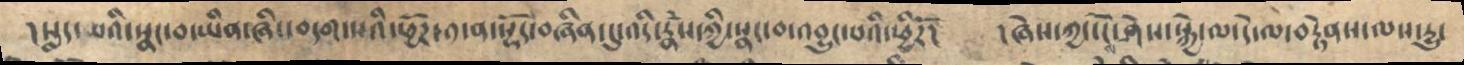།སླད་པའི་སྣང་བ་ཡིན་ཞིང་བདག་སའི་ཕྱོཌ་༡་ན་སྡོད་བཞིན་དུ་འདི་རྣཾས་ཀྱི་སྣང་བ་འབྱུང་པའི་ཕྱིརོ།  །ཞེས་ཀྱང་ངེས་ཤེས་སྐྱེ་ལ་དེ་ལ་བརྟེནས་ལས་དྱུ་
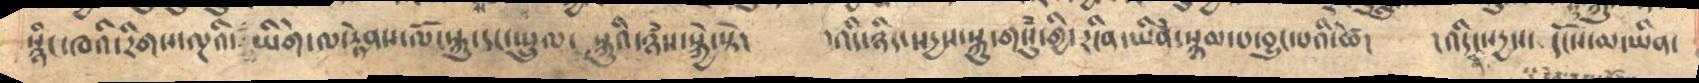སྙིང་ཁའི་རིགས་ལྔའི་  ཡིགེ་ལ་རྟེནས་ལོངསྐུ་དང་སྤྲུལ་   སྐུའི་ཉཾས་སྐྱེ་སྟེ།     །འདི་ཉིད་སདྱས་སྐུ་གསུཾ་གྱི་རངིན་ཡིནཾ་སྙམ་པ་བྱུང་པའི་ཚེ།  །འདི་སདྱས་  དངོས་མ་ཡིན་
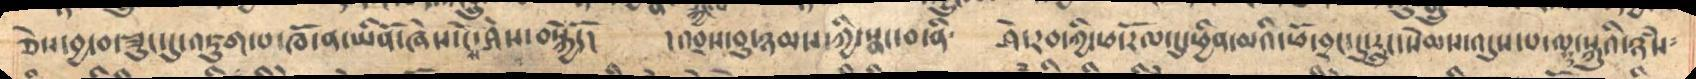ཅེས་བྱ་བ་ཟུང་དུ་འཇུག་པ་ཁོ་ན་ཡིནོ་ཞེས་ངེས་ཤེས་བསྐྱེདོ།    །འབྲས་བུ་ཉམས་ཀྱི་སྣང་བ་ནི༴   ཤེ་རབ་ཀྱི་ཕ་རོལ་དུ་ཕྱིན་མའི་ཕོ་བྲང་དུ་རླུང་སེམས་འདུས་པ་ལྷ་སྐུའི་ཉཾས༴
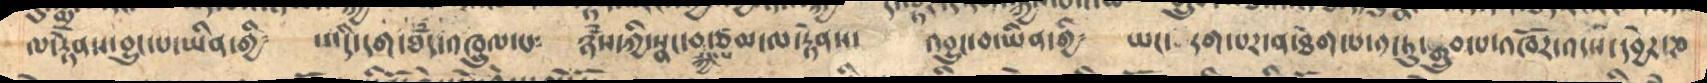ལ་རྟེནས་བྱུང་པ་ཡིན་གྱི༴   ་འདི་དག་ཐཾད་འཁྲུལ་པ༴   ཉཾས་ཀྱི་སྣང་བ་རྐྱང་པ་ཙམ་ལ་རྟེནས་   འབྱུང་བ་ཡིན་གྱི༴   ཡང་  དག་པར་ན་ཐེག་པ་༡་ཏུ་སྒྲུབ་པ་འཁོར་འདས་དབྱེར་ཎ
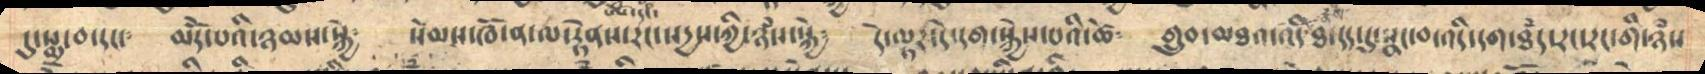དུ་སྨྲ་བ་དང་   མདོེ་པའི་ཉམས་སྐྱེ    སེམས་ཁོ་ན་ལ་རྟེནས་རང་སདྱས་ཀྱི་ཉཾས་སྐྱེ༴   དེ་ལྟར་དེ་དག་སྐྱེས་པའི་ཚེ༴   གྲུབ་མཐའ་འདི་ཐ་དད་དུ་སྣང་བ་འདི་དག་ཐཾད་རང་རང་གི་ཉཾས
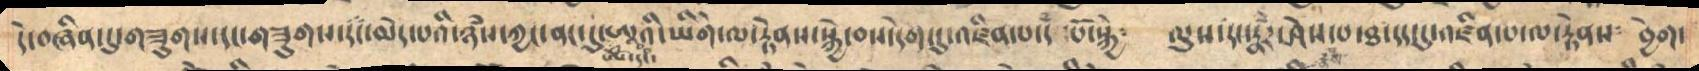དེ་བཞིནདུ་གཟུགས་དང་གཟུགས་དང་མེད་པའི་ཉཾས་ཀྱང་ནང་དུ་ཨཱོྃ་དང་ཨཱའི་ཡིགེ་ལ་རྟེནས་སྐྱེ་བས་དག་དུ་འཛིན་པ་དཾ ་པོ་སྐྱེ༴   ལུས་དང་རྣཾར་ཤེས་པ་ཐ་དད་དུ་འཛིན་པ་ལ་རྟེནས༴  བྱེག་
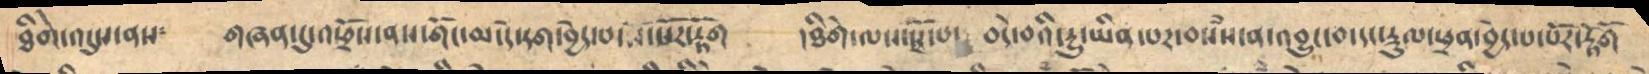ཐིགེ་འདུས་ནས   གཞན་དུ་འཕྲོས་ནས་གོང་མ་དེ་དག་བྱེད་པ་སོ་སོར་རྟོག   །ཐིགེ་ལས་སྭོ་པ་  བདེ་བའི་དྱུ་ཡིན་པར་བསཾས་ན་འབྱུང་བ་དང་རྡུལ་ཕྲན་བྱེད་པ་པོར་རྟོགོ
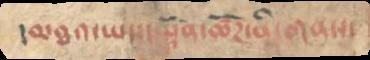།མཐའ་ཡས་།  ཡྟོན་ཚོཌ་ནི་གནས་
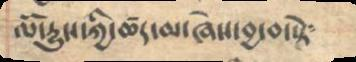ལོ་རྱུས་ཀྱི་ཚད་མ་ཞེས་བྱ་བ་སྟེ༴
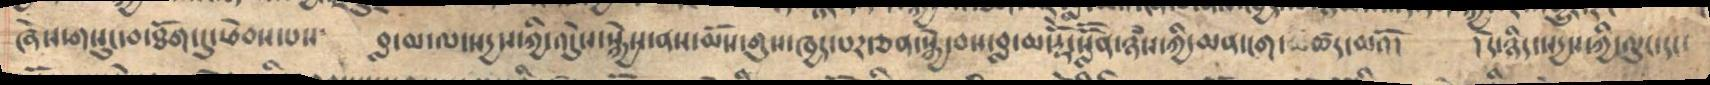ཞེས་གསུང་བ་ཐོག་དུ་ཕེབས་པས༴ བླ་མ་ལ་སདྱས་ཀྱི་འདེུས་སྐྱེས་ནས་མོས་གུས་ཁྱད་པར་ཅན་སྐྱེ་བས་བླ་མ་རྡོེ་སློོན་ཉཾས་ཀྱི་མན་ངག་ཚད་མའོ། །དེ་ཉིད་སདྱས་ཀྱི་ལུས་དང་
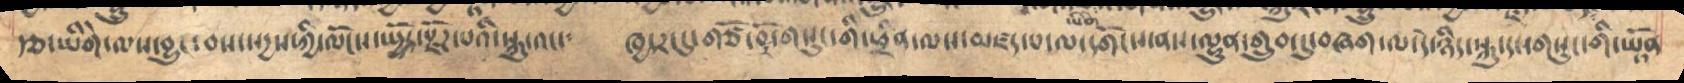རྩ་ཡིགེ་ལས་བྱུང་བས་སདྱས་ཀྱི་ལོངས་སྤྱོད་རྫོཌ་པའི་སྐུ་འདུད   ཁྱདར་དུ་གཙོ་བོར་གསུང་གི་ཕྲིན་ལས་མཛད་པ་ལ་དགོངས་ནས་ལྷུན་གྲུབ་དུ་བཞག་ལ་དེ་ཉིད་སྐུ་དང་གསུང་གི་ཡྟོན
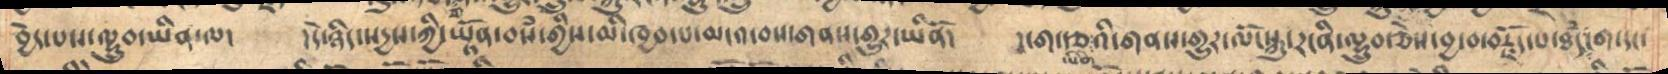བྱེད་པས་ལྷུབ་ཡིན་ལ།  །དེ་ཉིད་སདྱས་ཀྱི་ཡྟོན་བསཾ་གྱིས་མི་ཁྱབ་པ་མདའ་བས་གནས་གྱུར་ཡིནོ།   །ངག་་ཡིགེ་རྩའི་གནས་གྱུར་ལོངསྐུ་རངིན་ལྷུབ་ཅེས་བྱ་བ་བརྗོད་པ་ཐཾད་ངག་དང་
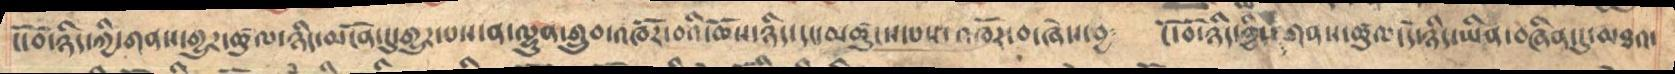ངོ་བོ་ཉིད་ཀྱི་གནས་གྱུར་ཚུལ་ཉིད་མངོན་དུ་གྱུར་པས་ན་ལྷུན་གྲུབ་འཁཽར་བའི་ཆོས་ཉིད་དང་མཚུངས་པས་འཁོར་བ་ཞེས་བྱ༴ ངོ་བོ་ཉིད་ཀྱིས་གནས་ཚུལ་དེ་ཉིད་ཡིན་བཞིན་དུ་མཐའ་
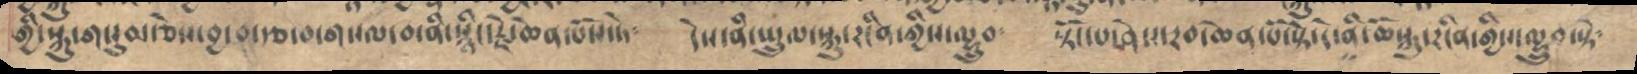གྱི་སྐུ་གསུམ་ཅེས་བྱ་བ་རྩ་བ་གསལ་བ་ནི་སྙིང་རྗེ་ཆེན་པོས་ཏེ༴ དེས་ནི་སྤྲུལ་སྐུ་རངིན་གྱིས་ལྷྲུབ་ སྟོང་པ་ཤེས་རབ་ཆེན་པོ་སྟེ་དེ་ནི་ཆོསྐུ་རངིན་གྱི་ལྷྲུབ་སྟེ༴
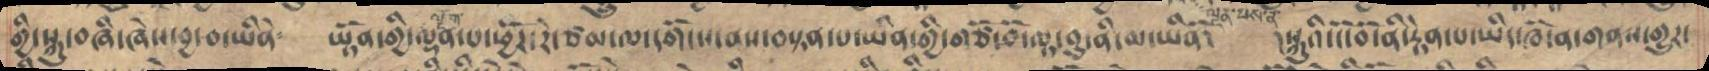གྱི་སྐུ་བཞི་ཞེས་བྱ་བ་ཡིནེ  ཡྟོན་གྱི་ལྡོག་ལྷན་པ་ཕྱོཌ་རེ་ཙམ་ལ་དགོངས་ནས་བསྟན་པ་ཡིན་གྱི་གཙོ་བོ་ལྟ་བུ་ནི་མ་ཡིནོ།   །སྐུའི་ངོ་བོ་ནི་རྟེན་པ་ཡིད་ཁོ་ན་གནས་གྱུར་
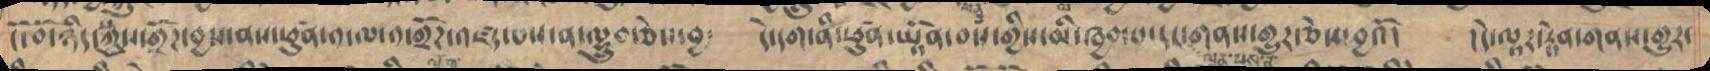ངོ་བོ་ཉིད་སྐུས་གྲོཌ་བྱས་ནས་ཕུན་༡་ལ་༡་གྲོཌ་འཛད་པས་ན་ལྷུབ་ཅེས་བྱ    དེ་དག་ནི་ཕུན༹་ཡྟོན་བསཾ་གྱིས་མི་ཁྱབ་པ་དང་ལྡན་པས་ན་གནས་གྱུར་ཅེས་བྱའོ།   །དེ་ལྟར་རྟེན་གནས་གྱུར་
